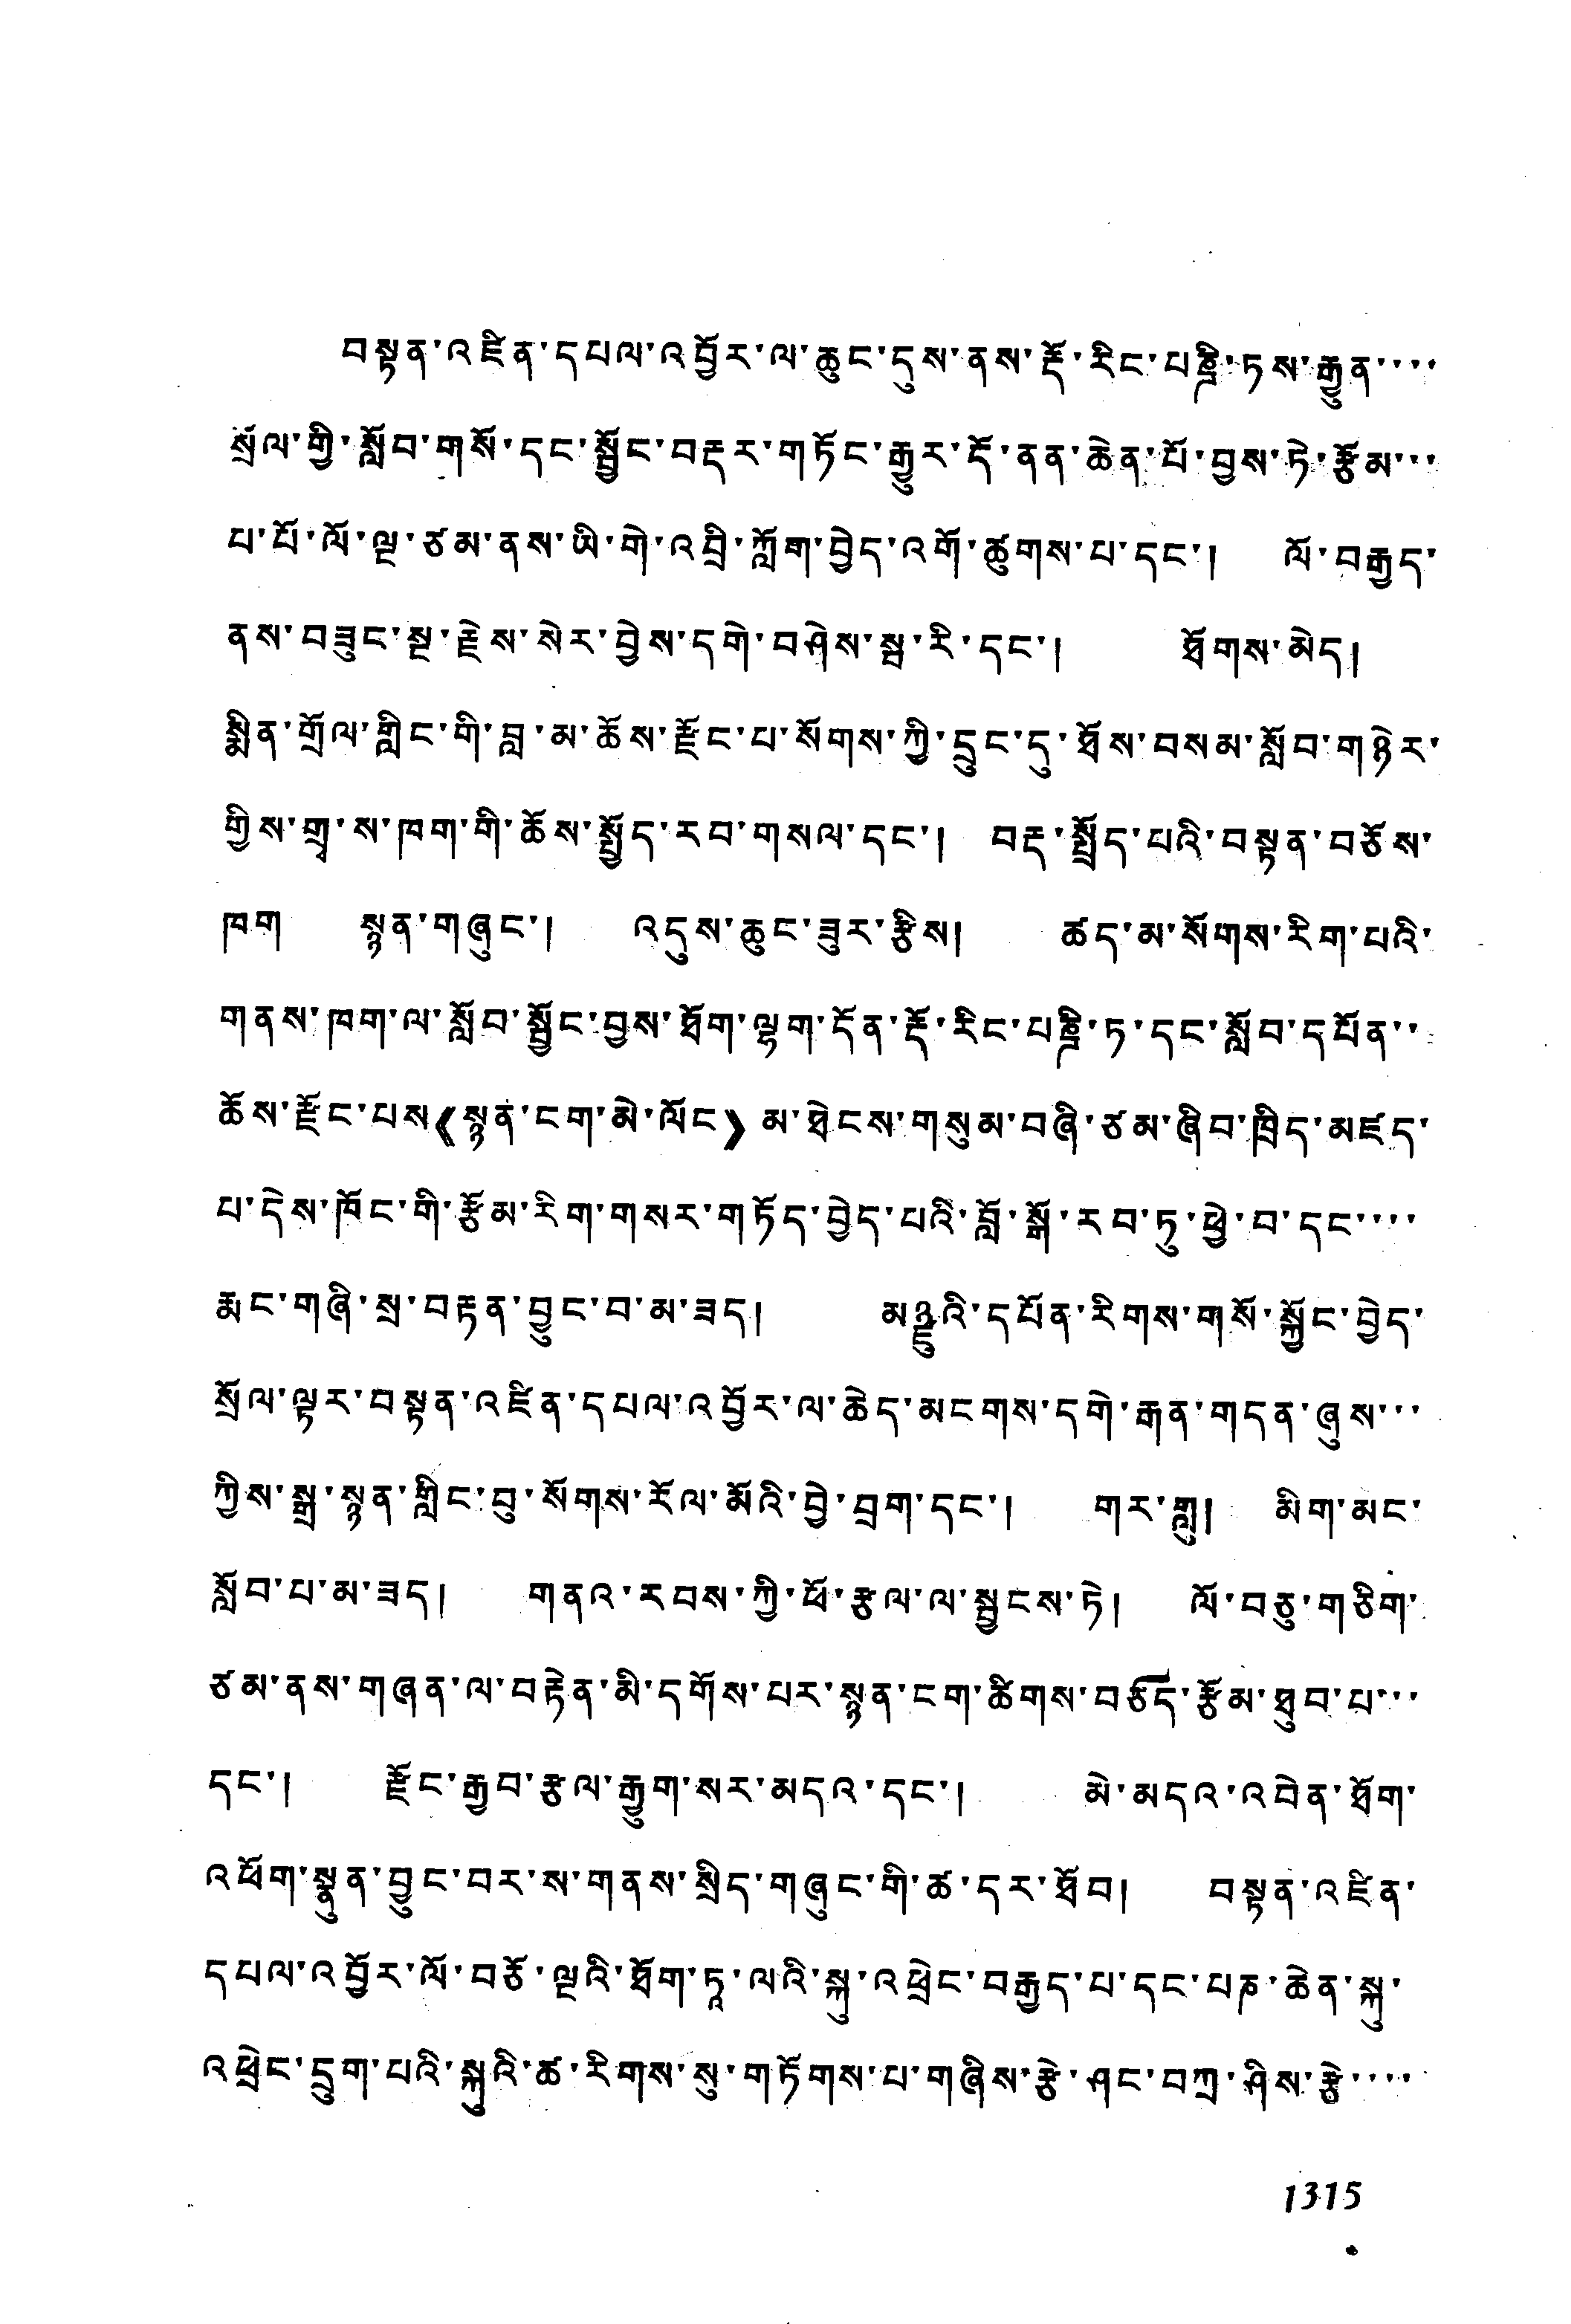བསྟན་འཛིན་དཔལ་འབྱོར་ལ་ཆུང་དུས་ནས་རྡོ་རིང་པཎྜི་ཏས་རྒྱུན་་་་
སྲོལ་གྱི་སློབ་གསོ་དང་སྦྱོང་བརྡར་གཏོང་རྒྱུར་དོ་ནན་ཆེན་པོ་བྱས་ཏེ་རྩོམ་་་
པ་པོ་ལོ་ལྔ་ཙམ་ནས་ཡི་གེ་འབྲི་ཀློག་བྱེད་འགོ་ཚུགས་པ་དང་། ལོ་བརྒྱད་
ནས་བཟུང་སྔ་རྗེས་སེར་བྱེས་དགེ་བཤེས་སྦ་རི་དང་། ཐོགས་མེད།
སྨིན་གྲོལ་གླིང་གི་བླ་མ་ཆོས་རྫོང་པ་སོགས་ཀྱི་དྲུང་དུ་ཐོས་བསམ་སློབ་གཉེར་
གྱིས་གྲྭ་ས་ཁག་གི་ཆོས་སྤྱོད་རབ་གསལ་དང་། བད་སྤྲོད་པའི་བསྟན་བཅོས་
ཁག སྙན་གཞུང་། འདུས་ཆུང་ཟུར་རྩིས། ཚད་མ་སོགས་རིག་པའི་
གནས་ཁག་ལ་སློབ་སྦྱོང་བྱས་ཐོག་ལྷག་དོན་རྡོ་རིང་པཎྜི་ཏ་དང་སློབ་དཔོན་་
ཆོས་རྫོང་པས 《སྙན་ངག་མེ་ལོང》 མ་ཐེངས་གསུམ་བཞི་ཙམ་ཞིབ་ཁྲིད་མཛད་
པ་དེས་ཁོང་གི་རྩོམ་རིག་གསར་གཏོད་བྱེད་པའི་བློ་སྒོ་རབ་ཏུ་ཕྱེ་བ་དང་་་་
རྨང་གཞི་སྲ་བརྟན་བྱུང་བ་མ་ཟད། མཉྫུའི་དཔོན་རིགས་གསོ་སྐྱོང་བྱེད་
སྲོལ་ལྟར་བསྟན་འཛིན་དཔལ་འབྱོར་ལ་ཆེད་མངགས་དགེ་རྒན་གདན་ཞུས་་་
ཀྱིས་སྐུ་སྙན་གླིང་བུ་སོགས་རོལ་མོའི་བྱེ་བྲག་དང་། གར་གླུ། མིག་མང་
སློབ་པ་མ་ཟད། གནའ་རབས་ཀྱི་ཕོ་རྩལ་ལ་སྦྱངས་ཏེ། ལོ་བཅུ་གཅིག་
ཙམ་ནས་གཞན་ལ་བརྟེན་མི་དགོས་པར་སྙན་ངག་ཚིགས་བཅད་རྩོམ་ཐུབ་པ་་་
དང་། རྫོང་རྒྱབ་རྩལ་རྒྱུག་སར་མདའ་དང་། མེ་མདའ་འབེན་ཐོག་
འཕྲོག་སྣུན་བྱུང་བར་ས་གནས་སྲིད་གཞུང་གི་ཚ་དར་ཐོབ། བསྟན་འཛིན་
དཔལ་འབྱོར་ལོ་བཅོ་ལྔའི་ཐོག་ཏཱ་ལའི་སྐུ་འཕྲེང་བརྒྱད་པ་དང་པཎ་ཆེན་སྐུ་
འཕྲེང་དྲུག་པའི་སྐུའི་ཚ་རིགས་སུ་གཏོགས་པ་གཞིས་རྩེ་ཤང་བཀྲ་ཤིས་རྩེ་་་་
1315
